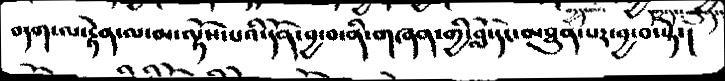བདག་ལ་རྟེན་ལ་མ་ལྟོས་པའི་དོན་བྱ་བ་ནི་གཞན་གྱི་བློ་དེང་མཐུན་པར་བྱ་བ་སྟེ་།
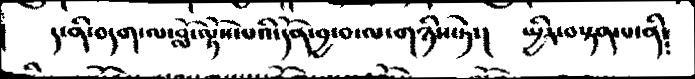ད་ནི་བདག་ལ་བློ་ལྟོས་པའི་དོན་བྱ་བ་ལ་གཉིས་ཏེ་།  སྤྱིར་བསྟན་པ་ནི༴
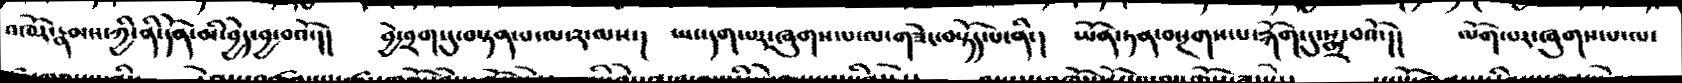འཁོར་རྣམས་ཀྱི་ནི་དོན་མི་བྱེད་བྱ་བའོ་།།  བྱེ་བྲག་དུ་བསྟན་པ་ལ་༢་ལས་།  ཡང་དག་པར་ཞུགས་པ་ལ་གཟེར་བསྟོད་པ་ནི་།  ཡོན་ཏན་བསྔགས་པ་རྐོག་དུ་སྨྲ་བའོ་།།  ལོག་པར་ཞུགས་པ་ལ་
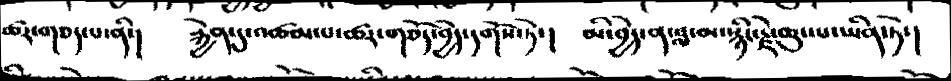ཚར་གཅད་པ་ནི་།  རྐྱེན་དུ་འཚམ་པ་ཚར་གཅོད་བྱེད་དགོས་ཏེ་།  མི་བྱེད་ན་བླ་མ་སྙིང་རྗེ་ཆུང་པ་ཡིན་ཏེ་།
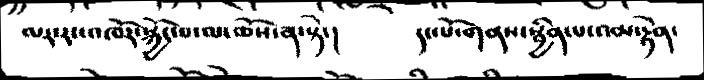མར་རང་འཁོར་སྐྱོང་པ་ལ་ཆོས་ན་སྟེ་།  དང་པོ་གནས་སྦྱིན་པ་འམ་རྟེན་
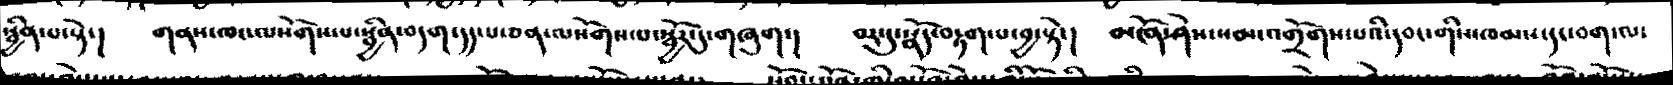སྦྱིན་པ་སྟེ་།  གནས་ཁང་ལསོགས་པ་སྦྱིན་བདག་དད་པ་ཅན་ལསོགས་པ་སྦྱོར་དུ་གཞུག་།  བར་དུ་སྣོད་བརྟག་པ་བྱ་སྟེ་།  མངོན་ཤེས་སམ་འགྲོགས་པའི་དབང་གིས་ཁམས་དང་བག་ལ་
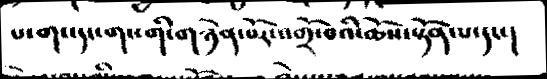པ་གང་དང་གང་གི་གཉེན་པོར་འགྲོ་བའི་ཆོས་སྟོན་པ་དང་།
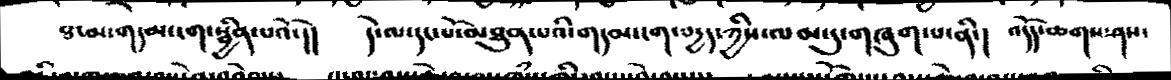ཐ་མ་གདམ་ངག་སྦྱིན་པའོ་།།  དེ་ལ་དང་པོ་མཐུན་པའི་གདམ་ངག་བདྱད་ཀྱིས་ལམ་དུ་གཞུག་པ་ནི་།  འདོད་ཆགས་ཤས་
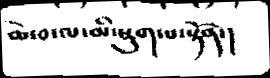ཆེ་བ་ལ་མི་སྡུག་པ་སྟོན་།
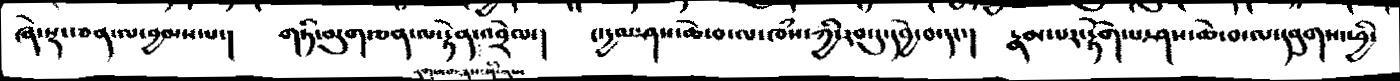ཞེ་སྡང་ཅན་ལ་བྱམས་པ་།  གཏི་མུག་ཅན་ལ་རྟེན་འབྲེལ་།  ང་དྱལ་ཤས་ཆེ་བ་ལ་ཁཾས་ཀྱི་རབ་དུ་དབྱེ་བ་དང་།  རྣམ་པར་རྟོག་པ་ཤས་ཆེ་བ་ལ་དབུགས་ཕྱི་
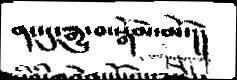ནང་དུ་སྒྱུ་བ་སྒོམ་མོ་།།
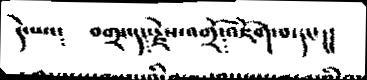དེ་པའ༴  བགྲང་དང་རྗེས་འགྲོ་འཇོག་པ་དང་།།
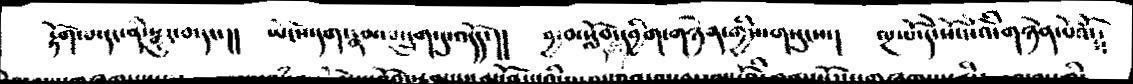རྟོག་པ་དང་ནི་སྒྱུར་བ་དང་།།  ཡོངས་དག་རྣམ་པ་དྲུག་དུ་འདོད་།།  བྱ་བ་སློབ་དབྱིག་གཉེན་གྱིས་གསུངས་།  ལྔ་པོ་དེ་སོ་སོའི་གཉེན་པོའོ༴༴
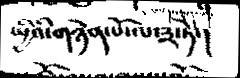སྤྱིའི་གཉེན་པོ་ལ་༣་ཏེ་།
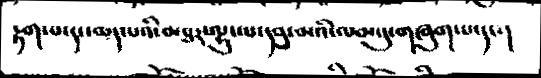རྟག་པ་དང་མད་པའི་མཐར་ལྷུང་པ་དབུ་མའི་ལམ་དུ་གཞུག་པ་དང་།
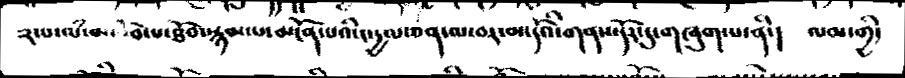༢་པ་ལཾ་མའི་བེ་པ་ཐོབ་སྙམ་པ་མངོན་པའི་ང་དྱལ་ཅན་ལ་བར་མ་དོའི་གནས་དོར་དུ་གཞུགས་པ་ནི་།  ལམ་གྱི་
